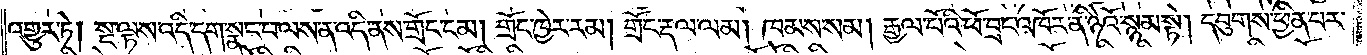འགྱུར་ཏེ། སྔ་ལྟས་འདི་དག་སྣང་བ་ལས་ན་འདི་ནས་གྲོང་ངམ། གྲོང་ཁྱེར་རམ། གྲོང་རྡལ་ལམ། ཁམས་སམ། རྒྱལ་པོའི་ཕོ་བྲང་འཁོར་ནི་ཉེའོ་སྙམ་སྟེ། དབུགས་ཕྱིན་པར་
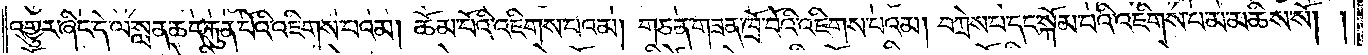འགྱུར་ཞིང་དེ་ལ་སླན་ཆད་རྐུན་པོའི་འཇིགས་པའམ། ཆོམ་པོའི་འཇིགས་པའམ། གཅན་གཟན་ཁྲོ་བོའི་འཇིགས་པའམ། བཀྲེས་པ་དང་སྐོམ་པའི་འཇིགས་པ་མ་མཆིས་སོ། །
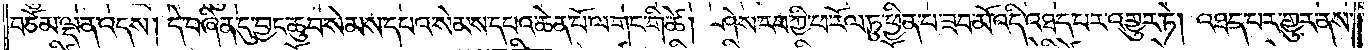བཅོམ་ལྡན་འདས། དེ་བཞིན་དུ་བྱང་ཆུབ་སེམས་དཔའ་སེམས་དཔའ་ཆེན་པོ་ལ་གང་གི་ཚེ། ཤེས་རབ་ཀྱི་ཕ་རོལ་ཏུ་ཕྱིན་པ་ཟབ་མོ་འདི་འཐད་པར་འགྱུར་ཏེ། འཐད་པར་གྱུར་ནས་
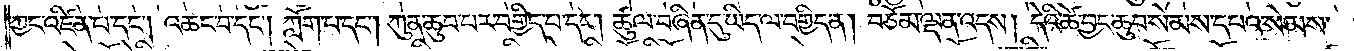ཀྱང་འཛིན་པ་དང༌། འཆང་བ་དང༌། ཀློག་པ་དང༌། ཀུན་ཆུབ་པར་བགྱིད་པ་དང༌། ཚུལ་བཞིན་དུ་ཡིད་ལ་བགྱིད་ན། བཅོམ་ལྡན་འདས། དེའི་ཚེ་བྱང་ཆུབ་སེམས་དཔའ་སེམས་
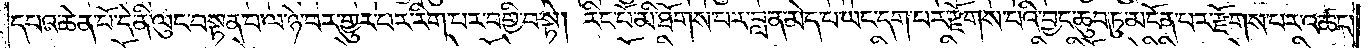དཔའ་ཆེན་པོ་དེ་ནི་ལུང་བསྟན་པ་ལ་ཉེ་བར་གྱུར་པར་རིག་པར་བགྱི་བ་སྟེ། རིང་པོ་མི་ཐོགས་པར་བླ་ན་མེད་པ་ཡང་དག་པར་རྫོགས་པའི་བྱང་ཆུབ་ཏུ་མངོན་པར་རྫོགས་པར་འཚང་
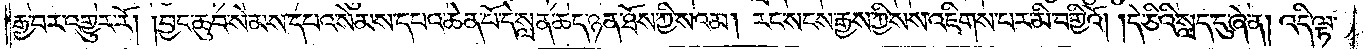རྒྱ་བར་འགྱུར་རོ། །བྱང་ཆུབ་སེམས་དཔའ་སེམས་དཔའ་ཆེན་པོ་དེ་སླན་ཆད་ཉན་ཐོས་ཀྱི་ས་འམ། རང་སངས་རྒྱས་ཀྱི་སས་འཇིགས་པར་མི་བགྱིའོ། །དེ་ཅིའི་སླད་དུ་ཞེ་ན། འདི་ལྟ་
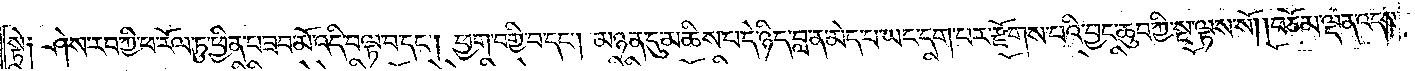སྟེ༑ ཤེས་རབ་ཀྱི་ཕ་རོལ་ཏུ་ཕྱིན་པ་ཟབ་མོ་འདི་བལྟ་བ་དང༌། ཕྱག་བགྱི་བ་དང༌། མཉན་དུ་མཆིས་པ་དེ་ཉིད་བླ་ན་མེད་པ་ཡང་དག་པར་རྫོགས་པའི་བྱང་ཆུབ་ཀྱི་སྔ་ལྟས་སོ། །བཅོམ་ལྡན་འདས་
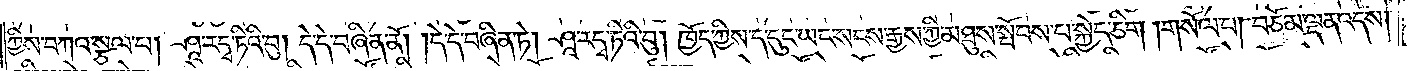ཀྱིས་བཀའ་སྩལ་པ། ཤཱ་ར་དྭ་ཏིའི་བུ། དེ་དེ་བཞིན་ནོ། །དེ་དེ་བཞིན་ཏེ། ཤཱ་ར་དྭ་ཏིའི་བུ། ཁྱོད་ཀྱིས་ད་དུང་ཡང་སངས་རྒྱས་ཀྱི་མཐུས་སྤོབས་པ་སྐྱེད་ཅིག །གསོལ་པ། བཅོམ་ལྡན་འདས།
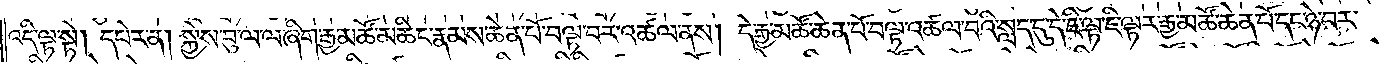འདི་ལྟ་སྟེ། དཔེར་ན། སྐྱེས་བུ་ལ་ལ་ཞིག་རྒྱ་མཚོ་མཆིང་རྣམ་ཆེན་པོ་བལྟ་བར་འཚལ་ནས། དེ་རྒྱ་མཚོ་ཆེན་པོ་བལྟ་འཚལ་བའི་སླད་དུ་དེ་ཇི་ལྟ་ཇི་ལྟར་རྒྱ་མཚོ་ཆེན་པོ་དང་ཉེ་བར་
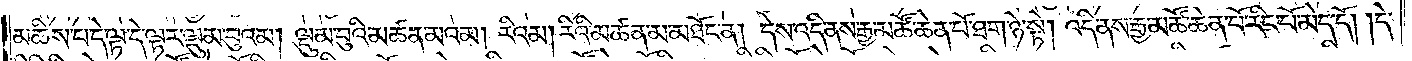མཆིས་པ་དེ་ལྟ་དེ་ལྟར་ལྡུམ་བུའམ། ལྡུམ་བུའི་མཚན་མའམ། རིའམ། རིའི་མཚན་མ་མཐོང་ན། དེས་འདི་ནས་རྒྱ་མཚོ་ཆེན་པོ་ཐག་ཉེ་སྟེ། འདི་ནས་རྒྱ་མཚོ་ཆེན་པོ་རིང་པོ་མེད་དོ། །དེ་
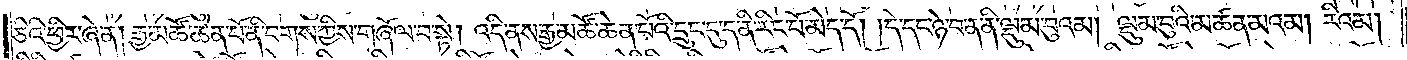ཅིའི་ཕྱིར་ཞེ་ན། རྒྱ་མཚོ་ཆེན་པོ་ནི་བགས་ཀྱིས་གཞོལ་བ་སྟེ། འདི་ནས་རྒྱ་མཚོ་ཆེན་པོའི་དྲུང་དུ་ད་ནི་རིང་པོ་མེད་དོ། །དེ་དང་ཉེ་བ་ན་ནི་ལྡུམ་བུའམ། ལྡུམ་བུའི་མཚན་མའམ། རིའམ།
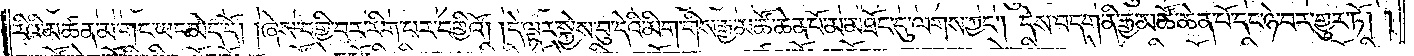རིའི་མཚན་མ་གང་ཡང་མེད་དོ། །ཞེས་བགྱི་བར་རིག་པར་བགྱིའོ། །དེ་ལྟར་སྐྱེས་བུ་དེའི་མིག་གིས་རྒྱ་མཚོ་ཆེན་པོ་མ་མཐོང་དུ་ལགས་ཀྱང༌། དེས་བདག་ནི་རྒྱ་མཚོ་ཆེན་པོ་དང་ཉེ་བར་གྱུར་ཏོ། །
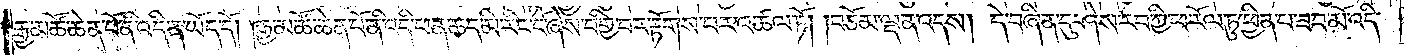རྒྱ་མཚོ་ཆེན་པོ་ནི་འདི་ན་ཡོད་དོ། །རྒྱ་མཚོ་ཆེན་པོ་ནི་འདི་ཕན་ཆད་མི་རིང་ངོ་ཞེས་བགྱི་བར་རྟོགས་པར་འཚལ་ཏོ། །བཅོམ་ལྡན་འདས། དེ་བཞིན་དུ་ཤེས་རབ་ཀྱི་ཕ་རོལ་ཏུ་ཕྱིན་པ་ཟབ་མོ་འདི་
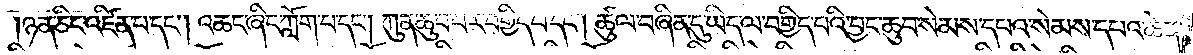ཉན་ཅིང་འཛིན་པ་དང༌། འཆང་ཞིང་ཀློག་པ་དང༌། ཀུན་ཆུབ་པར་བགྱིད་པ་དང༌། ཚུལ་བཞིན་དུ་ཡིད་ལ་བགྱིད་པའི་བྱང་ཆུབ་སེམས་དཔའ་སེམས་དཔའ་ཆེན་
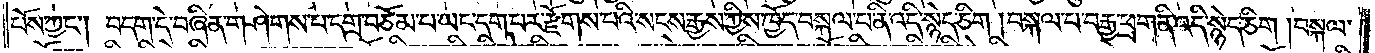པོས་ཀྱང༌། བདག་དེ་བཞིན་གཤེགས་པ་དགྲ་བཅོམ་པ་ཡང་དག་པར་རྫོགས་པའི་སངས་རྒྱས་ཀྱིས་ཁྱོད་བསྐལ་པ་ནི་འདི་སྙེད་ཅིག །བསྐལ་པ་བརྒྱ་ཕྲག་ནི་འདི་སྙེད་ཅིག །བསྐལ་
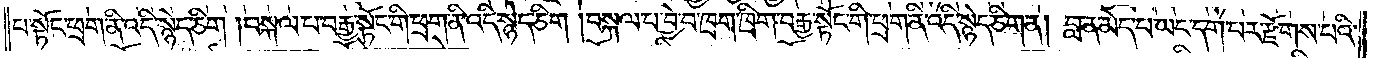པ་སྟོང་ཕྲག་ནི་འདི་སྙེད་ཅིག །བསྐལ་པ་བརྒྱ་སྟོང་གི་ཕྲག་ནི་འདི་སྙེད་ཅིག །བསྐལ་པ་བྱེ་བ་ཁྲག་ཁྲིག་བརྒྱ་སྟོང་གི་ཕྲག་ནི་འདི་སྙེད་ཅིག་ན། བླ་ན་མེད་པ་ཡང་དག་པར་རྫོགས་པའི་
